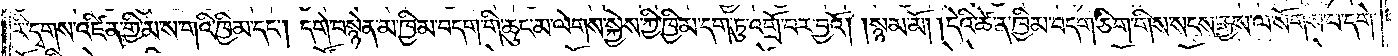རི་དྭགས་འཛིན་གྱི་མས་གའི་ཁྱིམ་དང༌། དགེ་བསྙེན་མ་ཁྱིམ་བདག་གི་ཆུང་མ་ལེགས་སྐྱེས་ཀྱི་ཁྱིམ་དག་ཏུ་འགྲོ་བར་བྱའོ། །སྙམ་མོ། །དེའི་ཚེ་ན་ཁྱིམ་བདག་ཅིག་གིས་སངས་རྒྱས་ལ་སོགས་པ་དགེ་
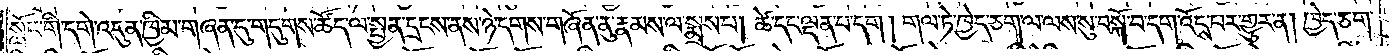སློང་གི་དགེ་འདུན་ཁྱིམ་གཞན་དུ་གདུགས་ཚོད་ལ་སྤྱན་དྲངས་ནས་ཉེ་དགས་གཞོན་ནུ་རྣམས་ལ་སྨྲས་པ། ཚེ་དང་ལྡན་པ་དག །གལ་ཏེ་ཁྱེད་ཅག་ལ་ལས་སུ་བསྐོ་བ་དག་འོངས་པར་གྱུར་ན། ཁྱེད་ཅག་
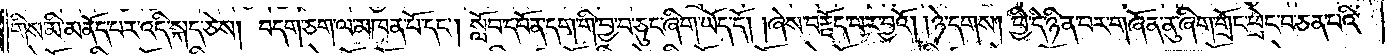གིས་མི་མནོད་པར་འདི་སྐད་ཅེས། བདག་ཅག་ལ་མཁན་པོ་དང༌། སློབ་དཔོན་དག་གི་བྱ་བ་ཅུང་ཞིག་ཡོད་དོ། །ཞེས་བརྗོད་པར་བྱའོ། །ཉེ་དགས། ཕྱི་དེ་ཉིན་པར་གཞོན་ནུ་ཞིག་གྲོང་ཕྲེང་བ་ཅན་པའི་
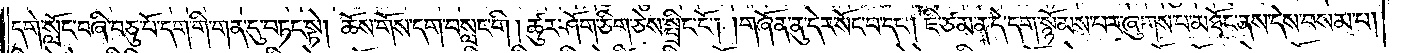དགེ་སློང་བཞི་བཅུ་པོ་དག་གི་གན་དུ་བཏང་སྟེ། ཆོས་གོས་དག་བསླང་གི། ཚུར་ཤོག་ཅིག་ཅེས་སྤྲིང་ངོ༌། །གཞོན་ནུ་དེར་སོང་བ་དང༌། ཇི་ཙམ་ན་དེ་དག་སྙོམས་པར་ཞུགས་པ་མཐོང་ནས་དེས་བསམ་པ།
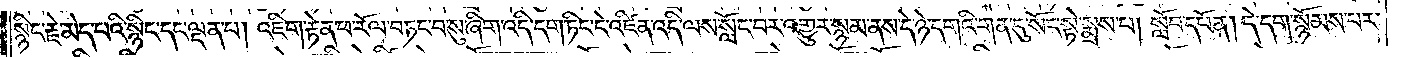སྙིང་རྗེ་མེད་པའི་སྙིང་དང་ལྡན་པ། འཇིག་རྟེན་ཕ་རོལ་བཏང་བ་སུ་ཞིག་འདི་དག་ཏིང་ངེ་འཛིན་འདི་ལས་སློང་བར་འགྱུར་སྙམ་ནས་དེ་ཉེ་དགའི་གན་དུ་སོང་སྟེ་སྨྲས་པ། སློབ་དཔོན། དེ་དག་སྙོམས་པར་
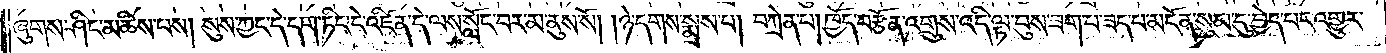ཞུགས་ཤིང་མཆིས་པས། སུས་ཀྱང་དེ་དག་ཏིང་ངེ་འཛིན་དེ་ལས་སློང་བར་མ་ནུས་སོ། །ཉེ་དགས་སྨྲས་པ། བཀྲེན་པ། ཁྱོད་བརྩོན་འགྲུས་འདི་ལྟ་བུས་ཟག་པ་ཟད་པ་མངོན་སུམ་དུ་བྱེད་པར་འགྱུར་
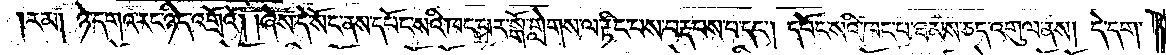རམ། ཉེ་དགའ་རང་ཉིད་འགྲོའོ། །ཞེས་དེ་སོང་ནས་དཔོང་སའི་ཁང་པར་སྒོ་གླེགས་ལ་རྟིང་བས་བརྡབས་པ་དང༌། དཔོང་སའི་ཁང་པ་ཐམས་ཅད་འགུལ་ནས། དེ་དག་
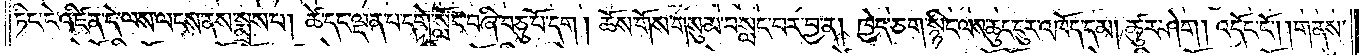ཏིང་ངེ་འཛིན་དེ་ལས་ལངས་ནས་སྨྲས་པ། ཚེ་དང་ལྡན་པ་དགེ་སློང་བཞི་བཅུ་པོ་དག །ཆོས་གོས་གསུམ་བསླང་བར་བྱ་ན། ཁྱེད་ཅག་སྙིང་ལས་ཆུང་ངུར་འཁོད་དམ། ཚུར་ཤེག །འདོང་ངོ༌། །གནས་
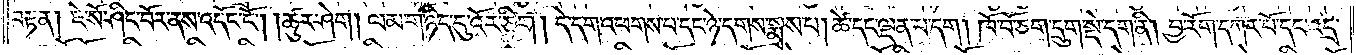བརྟན། ཇེ་སོ་ཤིང་བོར་ནས་འདོང་ངོ༌། །ཚུར་ཤེག །ལམ་ག་ཉིད་དུ་འོར་ཅིག །དེ་དག་འཕགས་པ་དང་ཉེ་དགས་སྨྲས་པ། ཚེ་དང་ལྡན་པ་དག། ཁོ་བོ་ཅག་དྲུག་སྡེ་དག་ནི། བྱ་རོག་དཀར་པོ་དང་འདྲ་
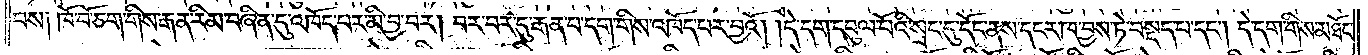བས། ཁོ་བོ་ཅག་གིས་རྒན་རིམ་བཞིན་དུ་འཁོད་པར་མི་བྱ་བར། བར་བར་དུ་རྒན་པ་དག་གིས་འཁོད་པར་བྱའོ། །དེ་དག་དབུལ་པོའི་སྲང་དུ་དོང་ནས་དངར་ཁ་བྱས་ཏེ་བསྡད་པ་དང༌། དེ་དག་གིས་མཐོང་
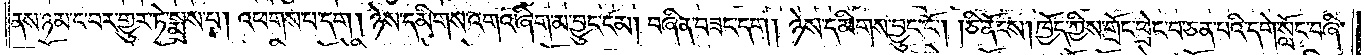ནས་ཉམ་ང་བར་གྱུར་ཏེ་སྨྲས་པ། འཕགས་པ་དག། ཉེས་དམིགས་འགའ་ཞིག་མ་བྱུང་ངམ། བཞིན་བཟང་དག། ཉེས་དམིགས་བྱུང་ངོ༌། །ཅི་ནོངས། ཁྱོད་ཀྱིས་གྲོང་ཕྲེང་བ་ཅན་པའི་དགེ་སློང་བཞི་
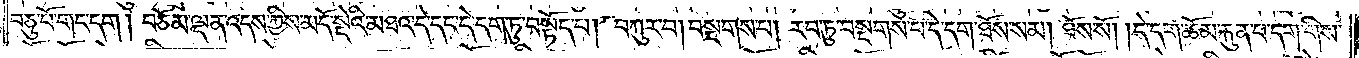བཅུ་པོ་གང་དག། བཅོམ་ལྡན་འདས་ཀྱིས་མདོ་སྡེའི་མཐའ་དེ་དང་དེ་དག་ཏུ་བསྟོད་པ། བཀུར་བ། བསྔགས་པ། རབ་ཏུ་བསྔགས་པ་དེ་དག་ཐོས་སམ། ཐོས་སོ། །དེ་དག་ཆོམ་རྐུན་པ་དག་གིས་
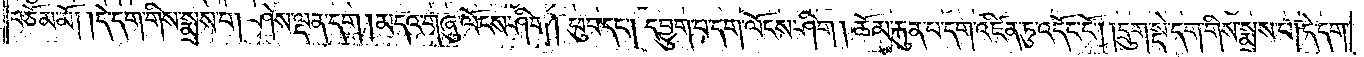བཅོམ་མོ། །དེ་དག་གིས་སྨྲས་པ། ཤེས་ལྡན་དག །མདའ་གཞུ་ལོངས་ཤིག །ཕུབ་དང༌། དབྱུག་པ་དག་ལོངས་ཤིག །ཆོམ་རྐུན་པ་དག་འཛིན་ཏུ་འདོང་ངོ༌། །དྲུག་སྡེ་དག་གིས་སྨྲས་པ། དེ་དག་
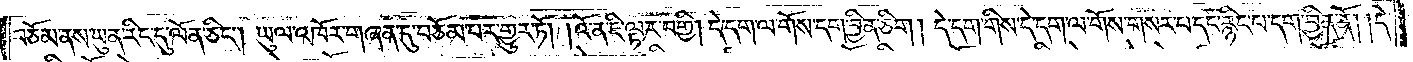བཅོམ་ནས་ཡུན་རིང་དུ་ལོན་ཅིང༌། ཡུལ་འཁོར་གཞན་དུ་བཅོམ་པར་གྱུར་ཏོ། །འོ་ན་ཇི་ལྟར་བགྱི། དེ་དག་ལ་གོས་དག་བྱིན་ཅིག །དེ་དག་གིས་དེ་དག་ལ་གོས་གསར་པ་དང་རྙིང་པ་དག་བྱིན་ནོ། །དེ་
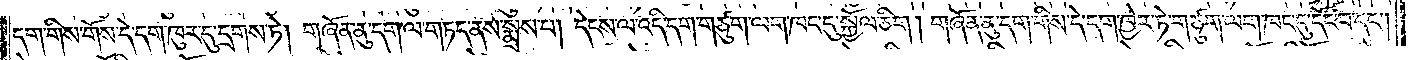དག་གིས་གོས་དེ་དག་ཁུར་དུ་དྲགས་ཏེ། གཞོན་ནུ་དག་ལ་གཏད་ནས་སྨྲས་པ། དེངས་ལ་འདི་དག་གཙུག་ལག་ཁང་དུ་སྐྱོལ་ཅིག །གཞོན་ནུ་དག་གིས་དེ་དག་ཁྱེར་ཏེ་གཙུག་ལག་ཁང་དུ་དོང་བ་དང༌།
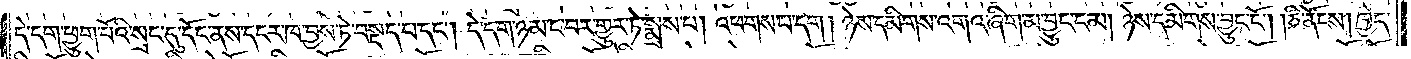དེ་དག་ཕྱུག་པོའི་སྲང་དུ་དོང་ནས་དངར་ཁ་བྱས་ཏེ་བསྡད་པ་དང༌། དེ་དག་ཉམ་ང་བར་གྱུར་ཏེ་སྨྲས་པ། འཕགས་པ་དག། ཉེས་དམིགས་འགའ་ཞིག་མ་བྱུང་ངམ། ཉེས་དམིགས་བྱུང་ངོ༌། །ཅི་ནོངས། ཁྱེད་
